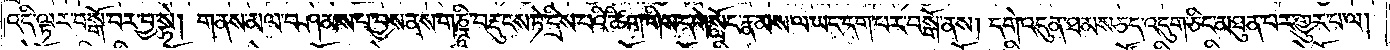འདི་ལྟར་བསྒོ་བར་བྱ་སྟེ། གནས་མལ་བཤམས་པ་བྱས་ནས་གཎྜཱི་བརྡུངས་ཏེ་དྲིས་པའི་ཚིག་གིས་དགེ་སློང་རྣམས་ལ་ཡང་དག་པར་བསྒོ་ནས། དགེ་འདུན་ཐམས་ཅད་འདུག་ཅིང་མཐུན་པར་གྱུར་པ་ལ།
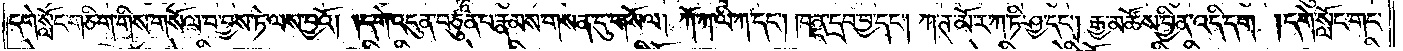དགེ་སློང་གཅིག་གིས་གསོལ་བ་བྱས་ཏེ་ལས་བྱའོ། །དགེ་འདུན་བཙུན་པ་རྣམས་གསན་དུ་གསོལ། ཀོ་ཀ་ལི་ཀ་དང༌། ཁནྡ་དྲབ་བྱ་དང༌། ཀ་ཊ་མོ་ར་ཀ་ཏི་ཤྱ་དང༌། རྒྱ་མཚོས་བྱིན་འདི་དག །དགེ་སློང་གང་
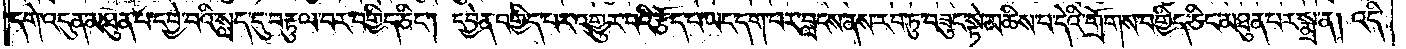དགེ་འདུན་མཐུན་པ་དབྱེ་བའི་སླད་དུ་བརྟུལ་བར་བགྱིད་ཅིང༌། དབྱེན་བགྱིད་པར་འགྱུར་བའི་རྩོད་པ་ཡང་དག་པར་བླངས་ནས་རབ་ཏུ་བཟུང་སྟེ་མཆིས་པ་དེའི་གྲོགས་བགྱིད་ཅིང་མཐུན་པར་སྨྲ་ན། འདི་
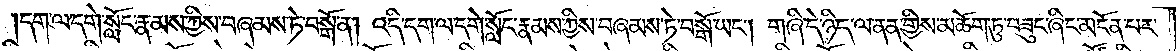དག་ལ་དགེ་སློང་རྣམས་ཀྱིས་བཞམས་ཏེ་བསྒོ་ན། འདི་དག་ལ་དགེ་སློང་རྣམས་ཀྱིས་བཞམས་ཏེ་བསྒོ་ཡང༌། གཞི་དེ་ཉིད་ལ་ནན་གྱིས་མཆོག་ཏུ་བཟུང་ཞིང་མངོན་པར་
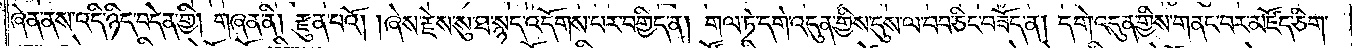ཞེན་ནས་འདི་ཉིད་བདེན་གྱི། གཞན་ནི། རྫུན་པའོ། །ཞེས་རྗེས་སུ་ཐ་སྙད་འདོགས་པར་བགྱིད་ན། གལ་ཏེ་དགེ་འདུན་གྱིས་དུས་ལ་བབ་ཅིང་བཟོད་ན། དགེ་འདུན་གྱིས་གནང་བར་མཛོད་ཅིག་
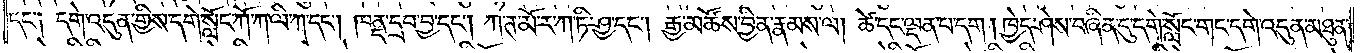དང་༑ དགེ་འདུན་གྱིས་དགེ་སློང་ཀོ་ཀ་ལི་ཀ་དང༌། ཁནྡ་དྲབ་བྱ་དང༌། ཀ་ཊ་མོ་ར་ཀ་ཏི་ཤྱ་དང༌། རྒྱ་མཚོས་བྱིན་རྣམས་ལ། ཚེ་དང་ལྡན་པ་དག །ཁྱེད་ཤེས་བཞིན་དུ་དགེ་སློང་གང་དགེ་འདུན་མཐུན་
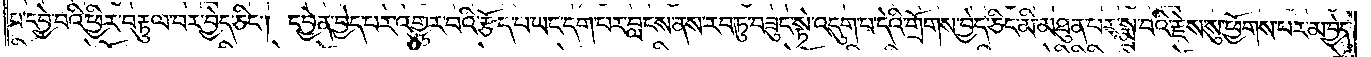པ་དབྱེ་བའི་ཕྱིར་བརྟུལ་བར་བྱེད་ཅིང༌། དབྱེན་བྱེད་པར་འགྱུར་བའི་རྩོད་པ་ཡང་དག་པར་བླངས་ནས་རབ་ཏུ་བཟུང་སྟེ་འདུག་པ་དེའི་གྲོགས་བྱེད་ཅིང་མི་མཐུན་པར་སྨྲ་བའི་རྗེས་སུ་ཕྱོགས་པར་མ་བྱེད་
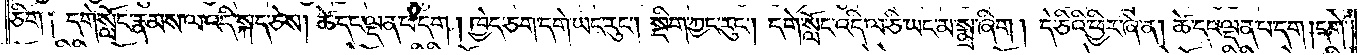ཅིག༑ དགེ་སློང་རྣམས་ལ་འདི་སྐད་ཅེས། ཚེ་དང་ལྡན་པ་དག །ཁྱེད་ཅག་དགེ་ཡང་རུང༌། སྡིག་ཀྱང་རུང༌། དགེ་སློང་འདི་ལ་ཅི་ཡང་མ་སྨྲ་ཞིག །དེ་ཅིའི་ཕྱིར་ཞེ་ན། ཚེ་དང་ལྡན་པ་དག །དགེ་
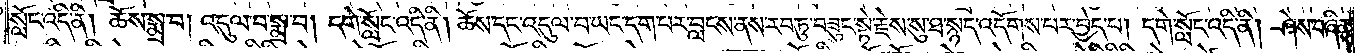སློང་འདི་ནི། ཆོས་སྨྲ་བ། འདུལ་བ་སྨྲ་བ། དགེ་སློང་འདི་ནི། ཆོས་དང་འདུལ་བ་ཡང་དག་པར་བླངས་ནས་རབ་ཏུ་བཟུང་སྟེ་རྗེས་སུ་ཐ་སྙད་འདོགས་པར་བྱེད་པ། དགེ་སློང་འདི་ནི། ཤེས་བཞིན་
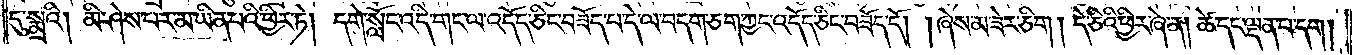དུ་སྨྲའི། མི་ཤེས་པར་མ་ཡིན་པའི་ཕྱིར་ཏེ། དགེ་སློང་འདི་གང་ལ་འདོད་ཅིང་བཟོད་པ་དེ་ལ་བདག་ཅག་ཀྱང་འདོད་ཅིང་བཟོད་དོ། །ཞེས་མ་ཟེར་ཅིག །དེ་ཅིའི་ཕྱིར་ཞེ་ན། ཚེ་དང་ལྡན་པ་དག།
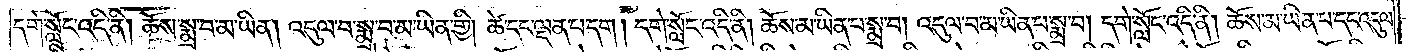དགེ་སློང་འདི་ནི། ཆོས་སྨྲ་བ་མ་ཡིན། འདུལ་བ་སྨྲ་བ་མ་ཡིན་གྱི། ཚེ་དང་ལྡན་པ་དག །དགེ་སློང་འདི་ནི། ཆོས་མ་ཡིན་པ་སྨྲ་བ། འདུལ་བ་མ་ཡིན་པ་སྨྲ་བ། དགེ་སློང་འདི་ནི། ཆོས་མ་ཡིན་པ་དང་འདུལ་
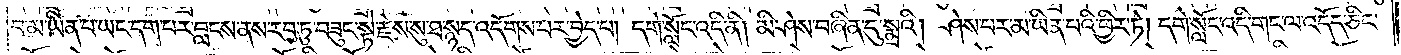བ་མ་ཡིན་པ་ཡང་དག་པར་བླངས་ནས་རབ་ཏུ་བཟུང་སྟེ་རྗེས་སུ་ཐ་སྙད་འདོགས་པར་བྱེད་པ། དགེ་སློང་འདི་ནི། མི་ཤེས་བཞིན་དུ་སྨྲའི། ཤེས་པར་མ་ཡིན་པའི་ཕྱིར་ཏེ། དགེ་སློང་འདི་གང་ལ་འདོད་ཅིང་
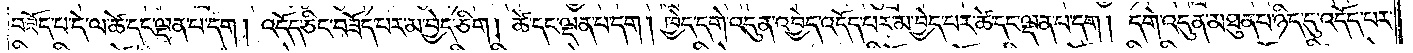བཟོད་པ་དེ་ལ་ཚེ་དང་ལྡན་པ་དག །འདོད་ཅིང་བཟོད་པར་མ་བྱེད་ཅིག །ཚེ་དང་ལྡན་པ་དག །ཁྱེད་དགེ་འདུན་འབྱེད་འདོད་པར་མ་བྱེད་པར་ཚེ་དང་ལྡན་པ་དག །དགེ་འདུན་མཐུན་པ་ཉིད་དུ་འདོད་པར་
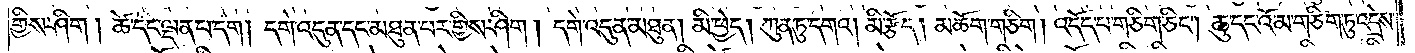གྱིས་ཤིག །ཚེ་དང་ལྡན་པ་དག །དགེ་འདུན་དང་མཐུན་པར་གྱིས་ཤིག །དགེ་འདུན་མཐུན། མི་ཕྱེད། ཀུན་ཏུ་དགའ། མི་རྩོད། མཆོག་གཅིག ། འདོད་པ་གཅིག་ཅིང༌། ཆུ་དང་འོ་མ་གཅིག་ཏུ་འདྲེས་
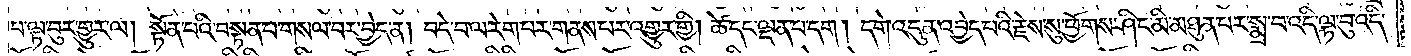པ་ལྟ་བུར་གྱུར་ལ། སྟོན་པའི་བསྟན་པ་གསལ་བར་བྱེད་ན། བདེ་བ་ལ་རེག་པར་གནས་པར་འགྱུར་གྱི། ཚེ་དང་ལྡན་པ་དག ། དགེ་འདུན་འབྱེད་པའི་རྗེས་སུ་ཕྱོགས་ཤིང་མི་མཐུན་པར་སྨྲ་བ་འདི་ལྟ་བུ་འདི་
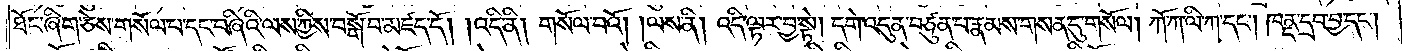ཐོང་ཞིག་ཅེས་གསོལ་པ་དང་བཞིའི་ལས་ཀྱིས་བསྒོ་བ་མཛད་དོ། །འདི་ནི། གསོལ་བའོ། །ལས་ནི། འདི་ལྟར་བྱ་སྟེ། དགེ་འདུན་བཙུན་པ་རྣམས་གསན་དུ་གསོལ། ཀོ་ཀ་ལི་ཀ་དང༌། ཁནྡ་དྲབ་བྱ་དང༌།
